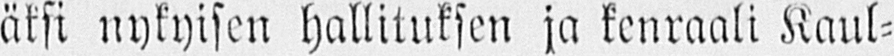äksi nykyisen hallituksen ja kenraali Kaul-
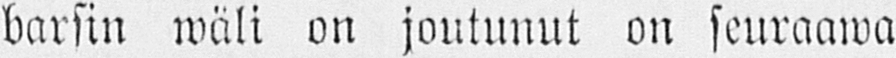barsin wäli on joutunut on seuraawa
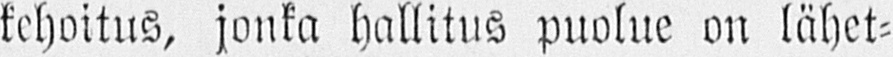kehoitus, jonka hallitus puolue on lähet-
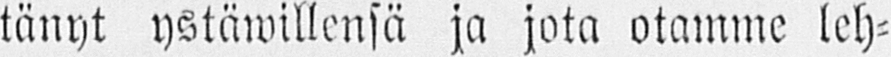tänyt ystäwillensä ja jota otamme leh-
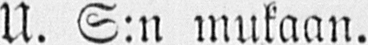U. S:n mukaan.
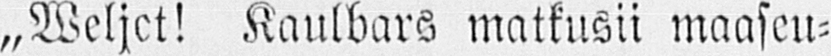„Weljet! Kaulbars matkusii maaseu-
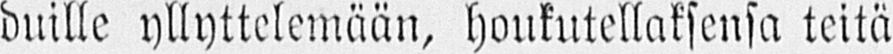duille yllyttelemään, houkutellaksensa teitä
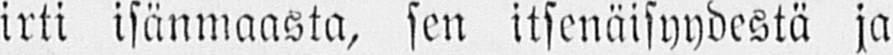irti isänmaasta, sen itsenäisyydestä ja
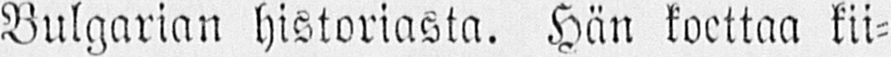Bulgarian historiasta. Hän koettaa kii-
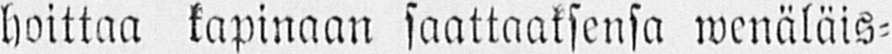hoittaa kapinaan saattaaksensa wenäläis-
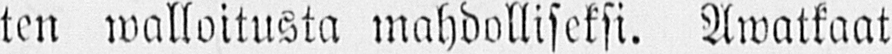ten walloitusta mahdolliseksi. Awatkaat
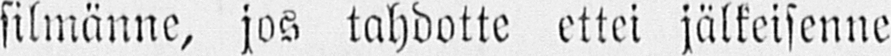silmänne, jos tahdotte ettei jälkeisenne
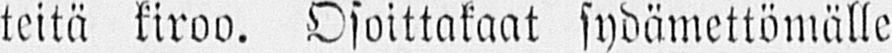teitä kiroo. Osoittakaat sydämettömälle
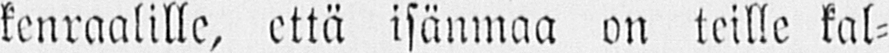kenraalille, että isänmaa on teille kal-
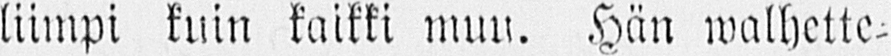liimpi kuin kaikki muu. Hän walhette-
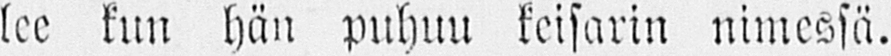lee kun hän puhuu keisarin nimessä.
